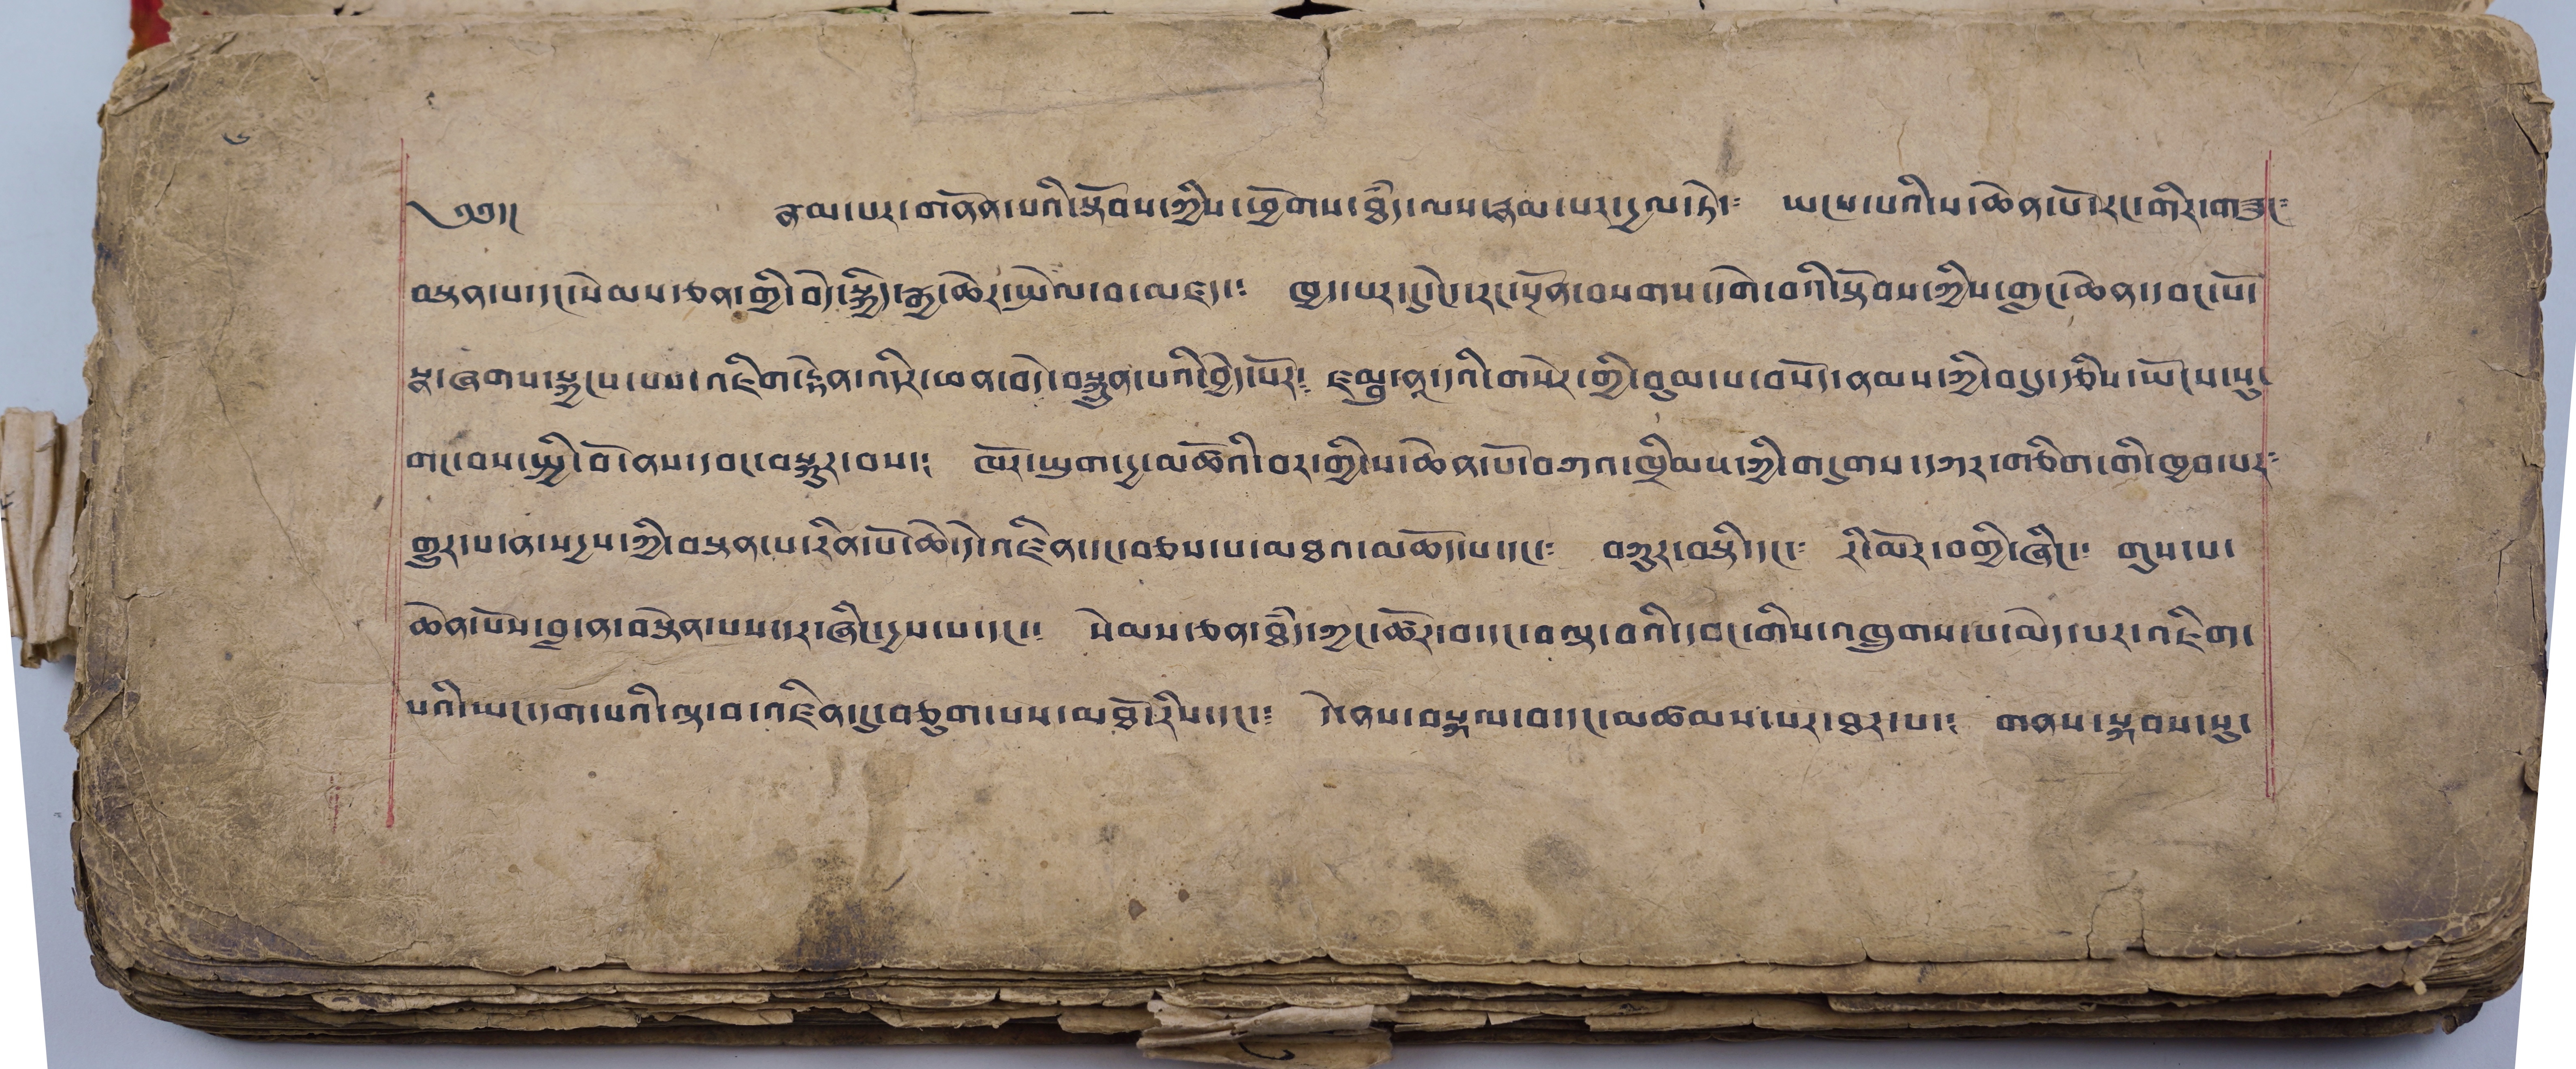༦
༄༅།། རྣམ་པར་གནོན་པའི་སྟོབས་ཀྱིས་ཕྱོགས་ཐཾད་ལས་རྣམ་པར་དྱལ་ཏེ་༴ ཡངས་པའི་ས་ཆེན་པོ་རང་གིར་གཟུང༴
བསྟན་པ་དང་སེམས་ཅན་གྱི་བདེ་སྐྱིད་རྒྱ་ཆེར་སྤེལ་བ་མཛད་༴ ཁྱད་པར་དུ་ངེད་རང་སྔོན་བསགས་དགེ་བའི་སྟོབས་ཀྱིས་གླང་ཆེན་དབང་པོ་
སྣ་ཞགས་སྐྱངས་པས་འཇིག་རྟེན་འདིར་ཕན་བདེ་བསྐྲུན་པའི་བྱེད་པོར་༴ ཛམྦུ་ནཱ་དའི་གསེར་གྱི་བུམ་པ་བསོད་ནམས་ཀྱི་བསུ་རྩིས་ཡོངས་སུ་
གང་བས་སྤྱི་བོ་ནས་དབང་བསྐུར་བས་༴ ཁོར་ཡུག་དྱ་མཚོའི་བར་གྱི་ས་ཆེན་པོ་བཀའ་ཁྲིམས་ཀྱི་གདུགས་དཀར་གཅིག་གྱི་ཁྱབ་པར༴
གྱུར་པ་ན་སདྱས་ཀྱི་བསྟན་པ་རིན་པོ་ཆེ་དེ་འཛིན་དང་བཅས་པ་མཐའ་མཆོད་པ་དང་༴ བཀུར་བསྟི་དང་༴ རི་མོར་བགྱི་ཞིང་༴ གུས་པ་
ཆེན་པོས་བླ་ན་བསྟེན་པས་དར་ཞིང་དྱས་པ་དང་༴ སེམས་ཅན་ཐཾད་ཀྱང་ཚོར་བ་དང་བལྟ་བའི་དབང་གིས་འཁྲུགས་པ་མེད་པར་འཇིག་
པའི་ཡང་དག་པའི་ལྟ་བ་འཛིན་དུ་བཅུག་པས་མཐོ་རིས་དང་༴ དེ་ནས་བསྐལ་བ་དང་མཚམས་པར་ཐར་པ་༴ གནས་སྐབས་སུ་
